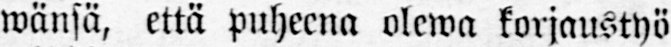wänsä, että puheena olewa korjaustyö
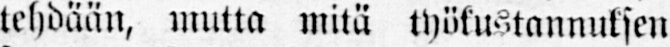tehdään, mutta mitä työkustannuksen
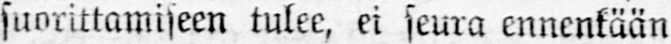suorittamiseen tulee, ei seura ennenkään
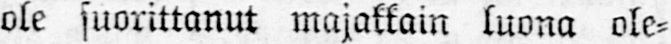ole suorittanut majakkain luona ole-
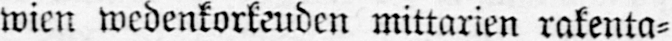wien wedenkorkeuden mittarien rakenta-
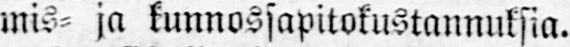mis- ja kunnossapitokustannuksia.
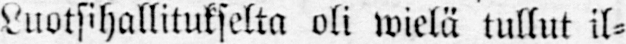Luotsihallitukselta oli wielä tullut il-
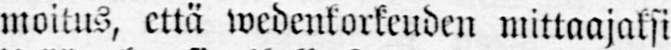moitus, että wedenkorkeuden mittaajaksi
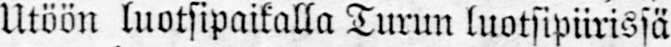Utöön luotsipaikalla Turun luotsipiirissä
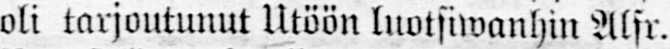oli tarjoutunut Utöön luotsiwanhin Alfr.
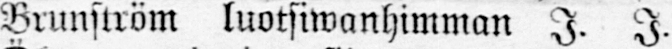Brunström luotsiwanhimman I. Z.
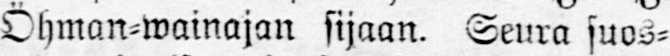Öhman-wainajan sijaan. Seura suos-
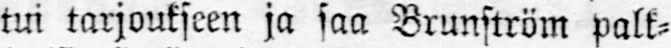tui tarjoukseen ja saa Brunström palk-
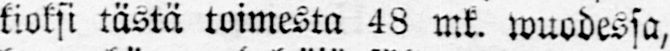kioksi tästä toimesta 43 mk. wuodessa,
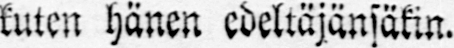kuten hänen edeltäjänsäkin.
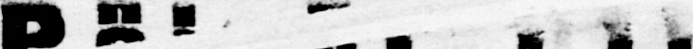Päivälehti
